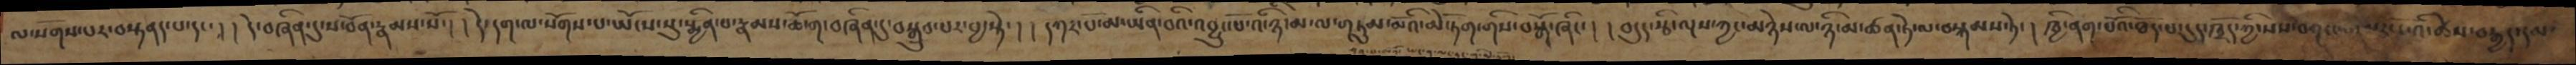ལ་སོགས་པར་བསྟནད་པ་དང་། །དེ་བཞིན་དུ་ས་བོན་རྣམས་སོ་། །དེ་དག་ལ་སོགས་པ་ཡོངས་སུ་སྨྱིན་པ་རྣམས་ཆོ་ག་བཞིན་དུ་བསྒྲུབ་པར་བྱ་སྟེ་། ། དཀར་པོ་མ་ཡིན་བའི་འབྱུང་པོ་འི་ཉི་མ་ལ་གཏུམ་མོའི་མེ་ཏོག་གིས་བསྒོ་ཞིང་། །བདུད་རྩི་ལྔས་ཀྱང་མཉེས་ལ་ཉི་མ་ཚན་ཏེ་ལ་བསྐམས་ཏེ་ ། ཁྱི་ནག་པོའི་ཐོད་པ་དུར་ཁྲོད་ཀྱི་སས་བཀང་དམར་པོའི་ཚེས་བརྒྱད་དམ་
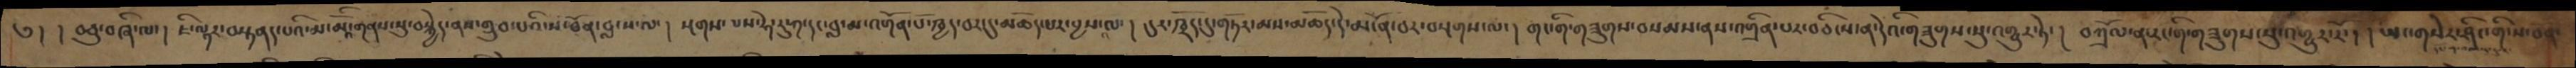༄། །བཅུ་བཞི་ལ་། ཇི་ལྟར་བསྟནད་པའི་མ་མོའི་གནས་སུ་བསྐྱེད་ནས་གྲུབ་པའི་ས་ཐོན་བླངས་ལ་། སྔགས་པས་ཧེ་རུ་ཀ་དང་བླ་མ་འགོན་པོ་ཁྱད་བར་དུ་མཆོད་པར་བྱས་ལ་། དུར་ཁྲོད་དུ་གཏོར་མས་མཆོད་དེ་མངོན་པར་བསྔགས་ལ་། གང་གི་གཟུགས་བསམས་ནས་འགྲིན་པར་བཅིངས་ན་དེའི་གཟུགས་སུ་འགྱུར་ཏེ་ ། བཀྲོལ་ན་རང་གི་གཟུགས་སུ་འགྱུར་རོ་། །ཡང་གསེར་ཤིང་གི་ས་བོན་
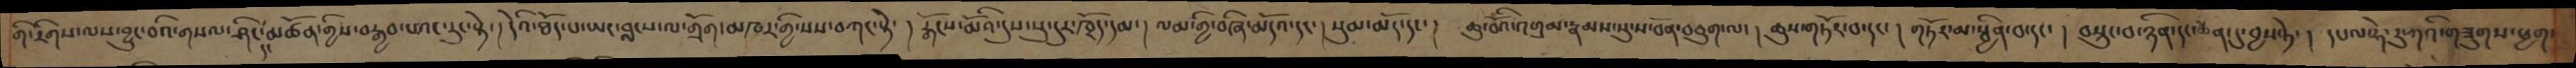གི་རིགས་ལས་བྱུང་བའི་གསལ་ཤིང་མཚོན་གྱིས་བརྒྱབ་པའང་རུང་སྟེ་། དེའི་ཐོད་པ་ཡང་བླངས་ལ་གྲོག་མཁར་གྱི་སས་བཀང་སྟེ་། རྒོངས་མོའི་དུས་སུ་དུར་ཁྲོད་དམ་། ལམ་གྱི་བཞི་མདོའ་དང་། སུམ་མདོ་དང་། ཆུ་བོའི་འགྲམ་རྣམས་སུ་ས་བོན་བཅུག་ལ་། ཆུས་གཏོར་པ་དང་། གཏོར་མ་སྦྱིན་པ་དང་། བསྲུང་བ་ཉིན་དང་ཚན་དུ་བྱས་ཏེ་། དཔལ་ཧེ་རུ་ཀའི་གཟུགས་ཕྱག་
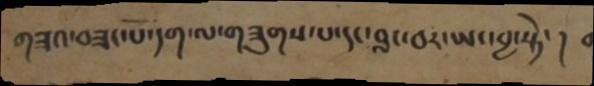གཟའ་བཟང་པོ་དག་ལ་གཟུགས་པ་དང་བླང་བར་ཡང་བྱ་སྟེ་། བ
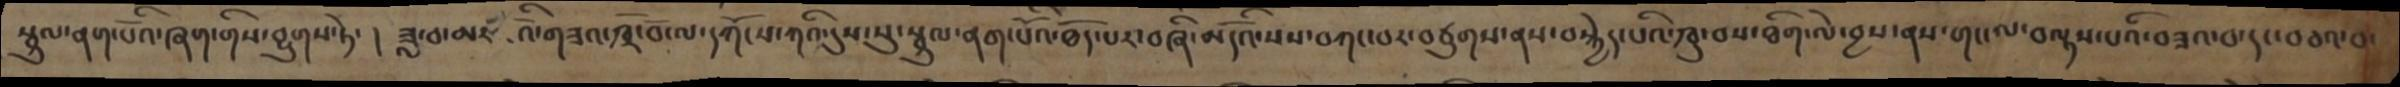སྦྲུལ་ནག་པོའི་ཞག་གིས་བྱུགས་ཏེ་ ། ཟླ་བ་མཛོའི་གཟའ་ཁྲོ་བོ་ལ་དགོངས་ཀའི་དུས་སུ་སྦྲུལ་ནག་པོའི་ཐོད་པར་བཞི་མདོའི་སས་བཀང་པར་བཙུགས་ནས་བསྐྱེད་པའི་ཁུ་བས་ཐིག་ལེ་བྱས་ནས་གང་ལ་བལྟས་པའི་བཟའ་བ་དང་བཅའ་བ་
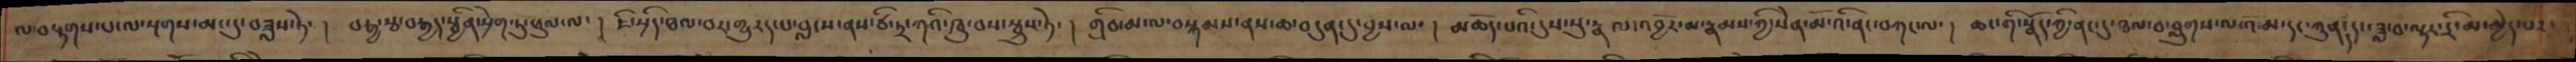ལ་བརྟགས་པ་ལ་སྔགས་མང་དུ་བཟླས་ཏེ་ ། བརྒྱ་རྩ་བརྒྱད་སྦྱིན་སྲེག་ཏུ་ཕུལ་ལ་ ། ཇི་སྲིད་ཐལ་བར་གྱུརད་པ་བླངས་ནས་ཙི་ཏྲ་ཀའི་ཁུ་བས་སྦྲུས་ཏེ་ ། གྲིབ་མ་ལ་བསྐམས་ནས་ཆ་བདུན་དུ་བྱས་ལ་ ། མཆོད་པའི་དུས་སུ་རྣལ་འབྱོར་མ་རྣམས་ཀྱི་སེན་མོ་འི་ནང་བཀང་ལ་ ། ཆང་གི་སྣོད་ཀྱི་ནང་དུ་ཐལ་བ་བླུགས་ལ་འོ་མ་དང་ཀུན་དུང་ཟླ་བ་ལྟར་དྲི་མ་མྱེད་པར་
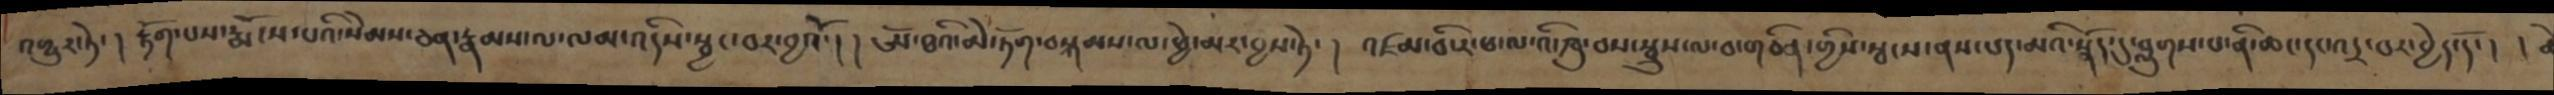འགྱུར་ཏེ་ ། རྟོག་པས་རྨོངས་པའི་སེམས་ཅན་རྣམས་ལ་ལམ་འདིས་སྦྱང་བར་བྱའོ་ །། ཨོ་ཐའི་མེ་ཏོག་བསྐམས་ལ་ཕྱེ་མར་བྱས་ཏེ་ ། འཛམ་བི་ར་ཕ་ལ་འི་ཁུ་བས་སྦྲུས་ལ་བ་གཅིན་གྱིས་སྦངས་ནས་པད་མའི་སྣོད་དུ་བླུགས་པ་ནི་ཆང་དང་འདྲ་བར་བྱེད་དོ་ །།
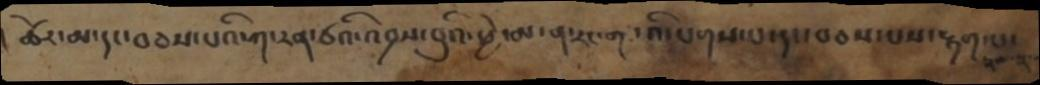།ཚེར་མ་དང་བཅས་པའི་ཀ་རན་ཙའི་འབྲས་བུའི་ཕྱེ་མ་ན་རང་ག་འི་འི་པགས་པ་དང་བཅས་པས་རྟག་པ་
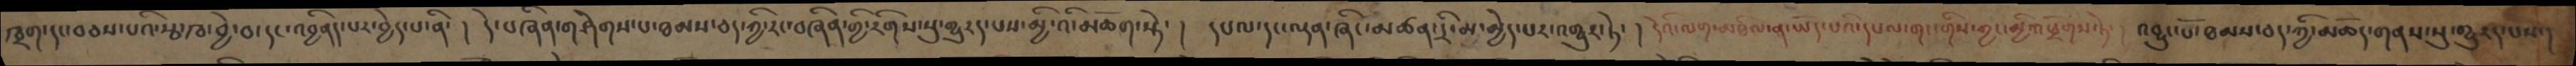ཁྲག་དང་བཅས་པའི་རྩ་ཁ་བྱེ་བ་དང་འབྱིནད་པར་བྱེད་པ་ནི་ ། དེ་བཞིན་གཤེགས་པ་ཐམས་ཅད་ཀྱི་རང་བཞིན་གྱི་རིགས་སུ་གྱུརད་པས་མྱི་འི་མཆོག་སྟེ་ ། དཔལ་དང་ལྡན་ཞིང་མཚན་དྲི་མ་མྱེད་པར་འགྱུར་ཏེ་ ། དེའི་ལག་མཐིལ་ན་ཡོད་པའི་དཔལ་གང་གིས་ཀྱང་མྱིག་འཕྲོགས་ཏེ་ ། འབྱུང་པོ་ཐམས་ཅད་ཀྱི་མཆོད་གནས་སུ་གྱུརད་པས་།
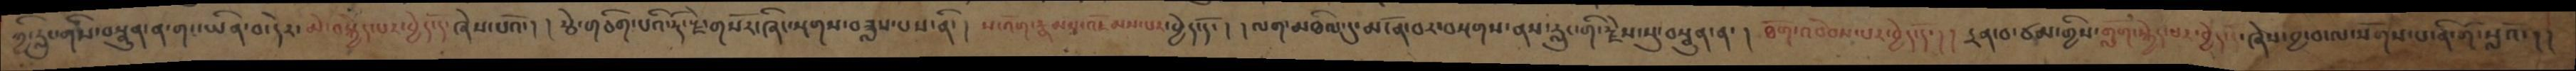ཀྱི་རླུང་གིས་བསྣུན་ན་གང་ཡིན་བ་དེར་མེ་བསྐྱེད་པར་བྱེད་དོ་ཞེས་པའོ་། །རྩེ་གཅིག་པའི་རྡོ་རྗེ་གསོར་ཞིང་སྔགས་བཟླས་པས་ནི་ ། ས་འོག་རྣམས་འཇོམས་པར་བྱེད་དོ་ ། ། ལག་མཐིལ་དུ་མངོན་བར་བསྔགས་ནས་རླུང་གི་རྗེས་སུ་བསྣུན་ན་ ། ཐོག་འབེབས་པར་བྱེད་དོ་ ། །དྲན་པ་ཙམ་གྱིས་གློག་སྐྱེད་པར་བྱེད་དོ་ཞེས་བྱ་བ་ལ་སོགས་པ་ནི་གོ་སླའོ་། །
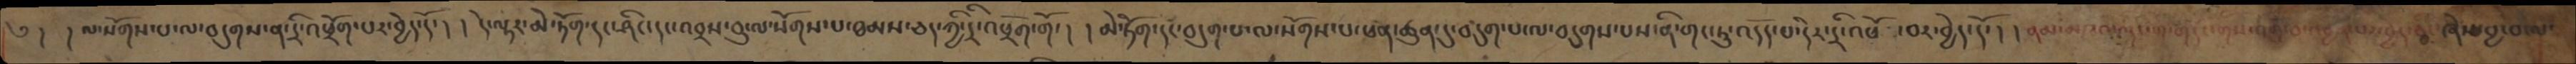༄ ། །ལ་སོགས་པ་ལ་བདུགས་ན་དྲི་འཕྲོག་པར་བྱེད་དོ་། །དེ་ལྟར་མེ་ཏོག་དང་ཤིང་དང་འབྲས་བུ་ལ་སོགས་པ་ཐམས་ཅད་ཀྱི་དྲི་འཕྲོག་གོ་ ། །མེ་ཏོག་དང་བདུག་པ་ལ་སོགས་པ་ཕན་ཚུན་དུ་བདུག་པ་ལ་བདུགས་པས་ནི་གང་ཏུ་འདོད་པ་དེར་དྲི་འཕོ་བར་བྱེད་དོ་ །།ནམ་མཁའི་ལུང་གི་གདོང་གིས་འགྲོ་བ་འབྱོར་པ་བྱེད་ཅིང་ཞེས་བྱ་བ་ལ་
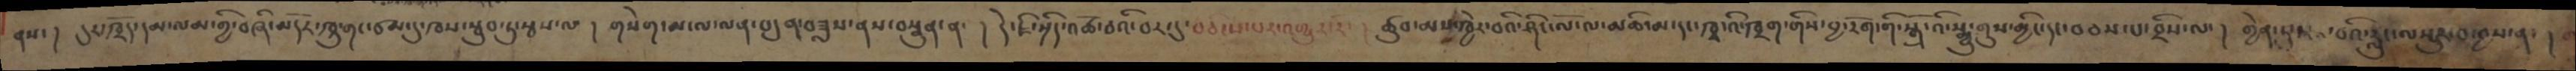ནས་ ། དུར་ཁྲོད་དམ་ལམ་གྱི་བཞི་མདོར་ཁྲུ་གང་ཙམ་དུ་ཁས་སྦུབ་ཏུ་སྦས་ལ་ ། གསེག་མ་ལ་ལན་བདུན་བཟླས་ནས་བསྣུན་ན་ ། དེ་ཇི་སྲིད་འཚོ་བའི་བར་དུ་བཅིངས་པར་འགྱུར་རོ་ ། ཚུབ་མས་ཁྱེར་བའི་ཤིང་ལོ་ལ་མཆི་མ་དང་ཁྭ་འི་ཁྲག་གིས་བྱ་རོག་གི་སྒྲོ་འི་སྨྱུ་གུས་མྱིང་དང་བཅས་པ་བྲིས་ལ་ ། གྱེན་ཏུ་ཏར་བའི་རླུང་ལ་སྲུང་བ་བྱས་ན་ ། །
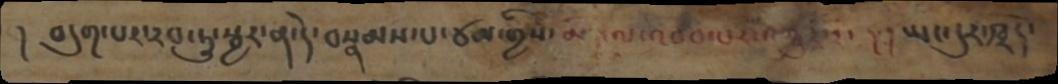། བདུག་པར་རབ་ཏུ་སྦྱར་ན་དེ་བསྣམས་པ་ཙམ་གྱིས་མེ་ལ་འབབ་པར་འགྱུར་རོ་ ། ། ཡང་དུར་ཁྲོད་
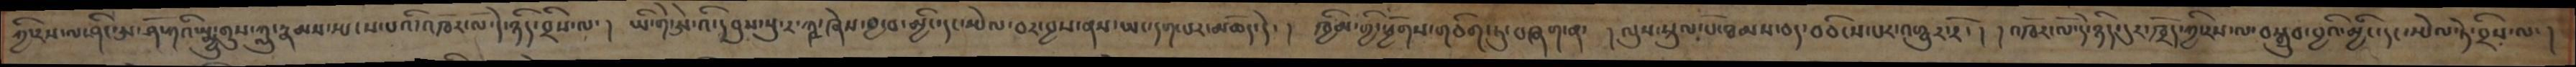ཀྱི་རས་ལ་ཤིང་ཨ་ཤོ་ཀའི་སྨྱུ་གུས་ཀླུ་རྣམས་སྤངས་པའི་འཁོར་ལོ་དེ་ཉིད་བྲིས་ལ་ ། ཡི་གེ་ཨེ་འི་དབུས་སུ་ར་ཀྵ་ཞེས་བྱ་བ་མྱིང་དང་སྤེལ་བར་བྱས་ནས་ཡང་དག་པར་མཆོད་དེ་ ། ཁྱིམ་གྱི་ཕྱོགས་གཅིག་ཏུ་བཞག་ན་  ། ལུས་སྡུལ་པོ་ཐམས་ཅད་བཅིངས་པར་འགྱུར་རོ་ ། །འཁོར་ལོ་དེ་ཉིད་དུར་ཁྲོད་ཀྱི་རས་ལ་བསྒྲུབ་བྱའི་མྱིང་དང་སྤེལ་ཏེ་བྲིས་ལ་ །
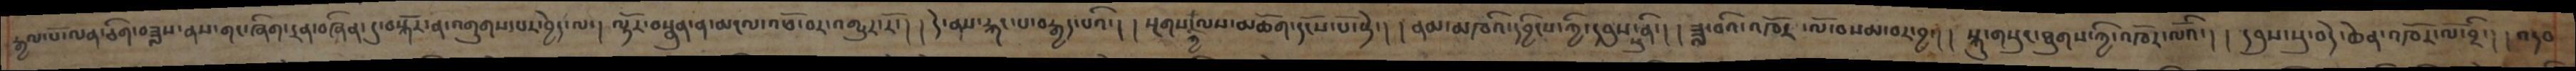རྒྱལ་པོ་ལན་ཅིག་བཟླས་ནས་གང་ཞིག་དྲན་བཞིན་དུ་བསྐོར་ན་འགུགས་པར་བྱེད་ལ་། ལྟོར་བསྣུན་ན་མངལ་འཕོ་བར་འགྱུར་རོ་ ། །དེ་ནས་རྐང་པ་བརྒྱད་པའི་། །སྔགས་ཀྱི་ལས་མཆོག་དངོས་པོ་སྟེ་། །ནམ་མཁའི་དབྱིངས་ཀྱི་དབུས་སུ་ནི་། །ཟླ་བའི་འཁོར་ལོ་བསམ་བར་བྱ་། །སྐུ་གསུང་ཐུགས་ཀྱི་འཁོར་ལོའོ་། །དབུས་སུ་བདེ་ཆེན་འཁོར་ལོ་བྲི་། །འདབ་
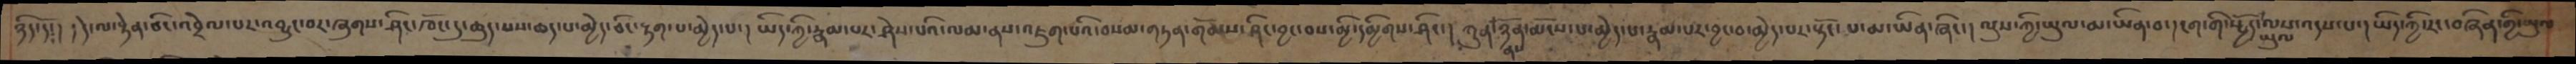ཉིད་དོ་། །དེ་ལ་རྟེན་ཅིང་འབྲེལ་བར་འབྱུང་བར་ཞུགས་ཤིང་ཁོང་དུ་ཆུད་པས་ཆད་པ་མྱེད་ཅིང་རྟག་པ་མྱེད་པ་། ཡིད་ཀྱི་རྣམ་པར་ཤེས་པའི་ལམ་ནས་འཇུག་པའི་བསམ་གཏན་གོམས་ཤིང་བྱང་བས་མྱི་དམྱིགས་ཤིང་། ཀུན་ནས་ཉོན་མོངས་པ་མྱེད་པ་རྣམ་པར་བྱང་བ་མྱེད་པར་སྟོང་པ་མ་ཡིན་ཞིང་། ལུས་ཀྱི་ཡུལ་མ་ཡིན་བ་། ངག་གི་སྤྱོད་ཡུལ་ལས་འདས་པ་། ཡིད་ཀྱི་རང་བཞིན་གྱི་ཡུལ་
